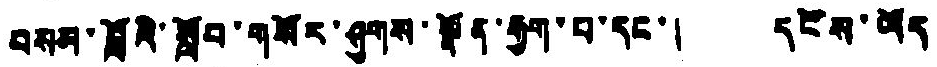བསམ་བློའི་སློབ་གསོར་ཤུགས་སྟོན་རྒྱག་པ་དང་། དངོས་ཡོད
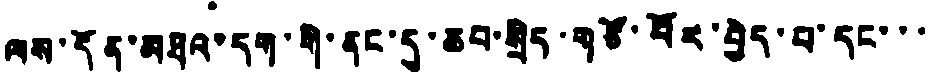ལས་དོན་མཐའ་དག་གི་ནང་དུ་ཆབ་སྲིད་གཙོ་བོར་བྱེད་པ་དང་་་
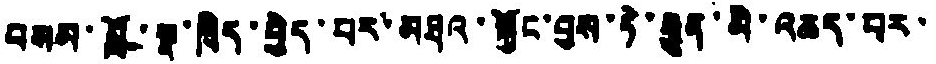བསམ་སྦོ་སྣ་ཁྲིད་བྱེད་བར་མཐའ་སྐྱོང་བྱས་ཏེ་རྒྱུན་མི་འཆད་པར་
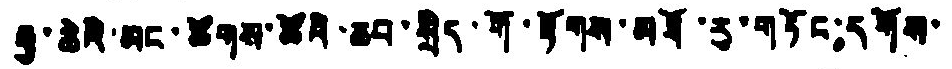རྒྱ་ཆེའི་མང་ཚོགས་ཚོའི་ཆབ་སྲིད་གོ་རྟོགས་མཐོ་རུ་གཏོང་དགོས་་
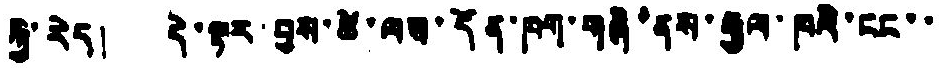ཀྱི་རེད། དེ་ལྟར་བྱས་ཚེ་ལས་དོན་ཁག་གཞི་ནས་རྒྱལ་ཁའི་ངང་་
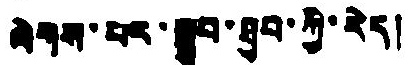ལེགས་པར་སྒྲུབ་ཐུབ་ཀྱི་རེད།
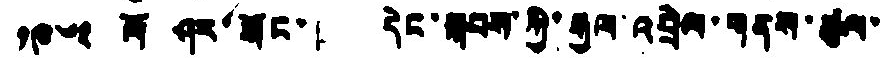༡༩༦༢ ལོ ཤར་སོང་། དེང་སྐབས་ཀྱི་རྒྱལ་འབྲེལ་གནས་ཚུལ་
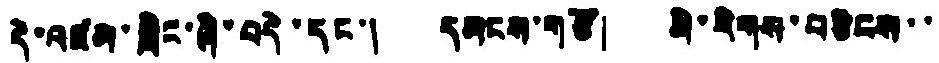དེ་འཛམ་གླིང་ཞི་བདེ་དང་། དམངས་གཙོ། མི་རིགས་བཅིངས་་
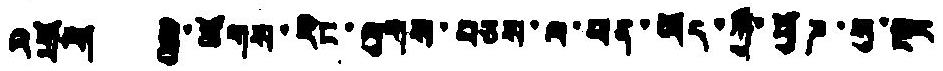འགྲོལ། སྤྱི་ཚོགས་རིང་ལུགས་བཅས་ལ་ཕན་ཡོད་ཀྱི་ཕྱིཌ་སུ་སྔར
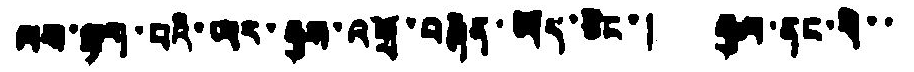ལས་ལྷག་པའི་ཡར་རྒྱས་འགྲོ་བཞིན་ཡོད་ཅིང་། རྒྱལ་ནང་གི་་
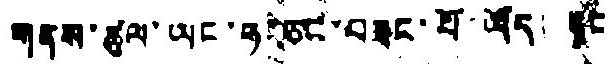གནས་ཚུལ་ཡང་ཧ་ཅང་བཟང་པོ་ཡོད། ཏང
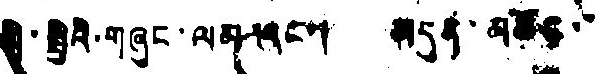གི་སྤྱིའི་གཞུང་ལམ་དང་། མདུན་མཆོང་་
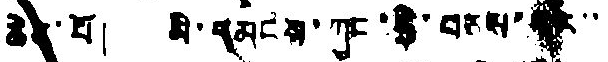ཆེན་པོ། མི་དམངས་ཀུང་ཧྲེ་བཅས་དར་་
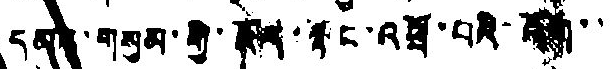དམར་གསུམ་གྱི་འོད་སྟོང་འཕྲོ་བའི་འོག་་
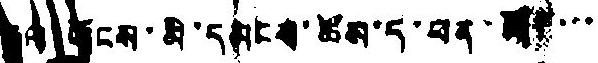རྒྱལ་ཡོངས་མི་དམངས་ཚོས་ད་ཕན་སོ་་་་
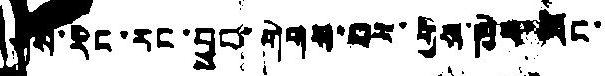ནས་རིང་རང་བྱུང་གེགས་པར་གྱིས་ཁྱེབ་ཡོང་
